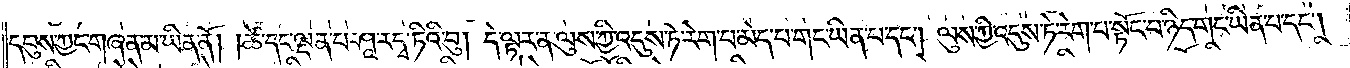དབུས་ཀྱང་གཞན་མ་ཡིན་ནོ། །ཚེ་དང་ལྡན་པ་ཤཱ་རདྭ་ཏིའི་བུ། དེ་ལྟར་ན་ལུས་ཀྱི་འདུས་ཏེ་རེག་པ་མེད་པ་གང་ཡིན་པ་དང༌། ལུས་ཀྱི་འདུས་ཏེ་རེག་པ་སྟོང་པ་ཉིད་གང་ཡིན་པ་དང༌།
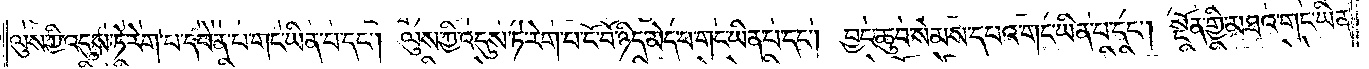ལུས་ཀྱི་འདུས་ཏེ་རེག་པ་དབེན་པ་གང་ཡིན་པ་དང༌། ལུས་ཀྱི་འདུས་ཏེ་རེག་པ་ངོ་བོ་ཉིད་མེད་པ་གང་ཡིན་པ་དང༌། བྱང་ཆུབ་སེམས་དཔའ་གང་ཡིན་པ་དང༌། སྔོན་གྱི་མཐའ་གང་ཡིན་
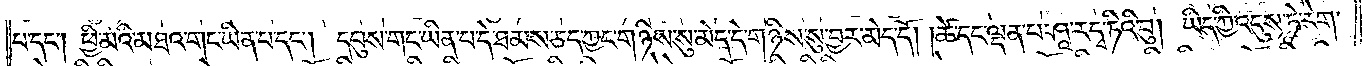པ་དང༌། ཕྱི་མའི་མཐའ་གང་ཡིན་པ་དང༌། དབུས་གང་ཡིན་པ་དེ་ཐམས་ཅད་ཀྱང་གཉིས་སུ་མེད་དེ་གཉིས་སུ་བྱར་མེད་དོ། །ཚེ་དང་ལྡན་པ་ཤཱ་རདྭ་ཏིའི་བུ། ཡིད་ཀྱི་འདུས་ཏེ་རེག་
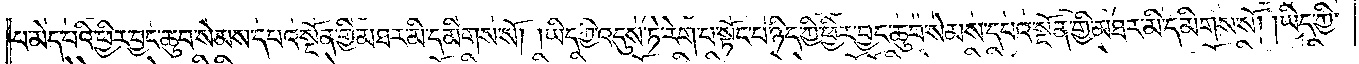པ་མེད་པའི་ཕྱིར་བྱང་ཆུབ་སེམས་དཔའ་སྔོན་གྱི་མཐར་མི་དམིགས་སོ། །ཡིད་ཀྱི་འདུས་ཏེ་རེག་པ་སྟོང་པ་ཉིད་ཀྱི་ཕྱིར་བྱང་ཆུབ་སེམས་དཔའ་སྔོན་གྱི་མཐར་མི་དམིགས་སོ། །ཡིད་ཀྱི་
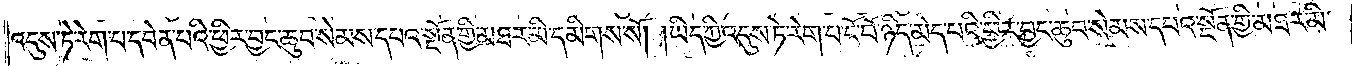འདུས་ཏེ་རེག་པ་དབེན་པའི་ཕྱིར་བྱང་ཆུབ་སེམས་དཔའ་སྔོན་གྱི་མཐར་མི་དམིགས་སོ། །ཡིད་ཀྱི་འདུས་ཏེ་རེག་པ་ངོ་བོ་ཉིད་མེད་པའི་ཕྱིར་བྱང་ཆུབ་སེམས་དཔའ་སྔོན་གྱི་མཐར་མི་
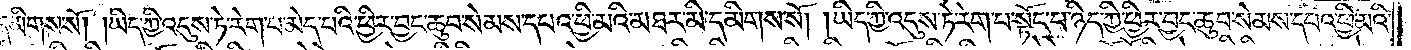དམིགས་སོ། །ཡིད་ཀྱི་འདུས་ཏེ་རེག་པ་མེད་པའི་ཕྱིར་བྱང་ཆུབ་སེམས་དཔའ་ཕྱི་མའི་མཐར་མི་དམིགས་སོ། །ཡིད་ཀྱི་འདུས་ཏེ་རེག་པ་སྟོང་པ་ཉིད་ཀྱི་ཕྱིར་བྱང་ཆུབ་སེམས་དཔའ་ཕྱི་མའི་
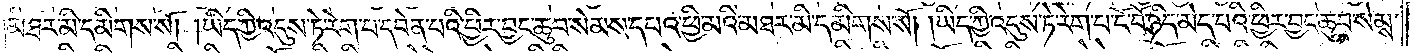མཐར་མི་དམིགས་སོ། །ཡིད་ཀྱི་འདུས་ཏེ་རེག་པ་དབེན་པའི་ཕྱིར་བྱང་ཆུབ་སེམས་དཔའ་ཕྱིར་བྱང་ཆུབ་སེམས་དཔའ་ཕྱི་མའི་མཐར་མི་དམིགས་སོ། །ཡིད་ཀྱི་འདུས་ཏེ་རེག་པ་ངོ་བོ་ཉིད་མེད་པའི་ཕྱིར་བྱང་ཆུབ་སེམས་
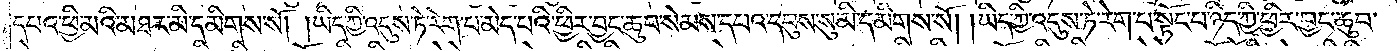དཔའ་ཕྱི་མའི་མཐར་མི་དམིགས་སོ། །ཡིད་ཀྱི་འདུས་ཏེ་རེག་པ་མེད་པའི་ཕྱིར་བྱང་ཆུབ་སེམས་དཔའ་དབུས་སུ་མི་དམིགས་སོ། །ཡིད་ཀྱི་འདུས་ཏེ་རེག་པ་སྟོང་པ་ཉིད་ཀྱི་ཕྱིར་བྱང་ཆུབ་
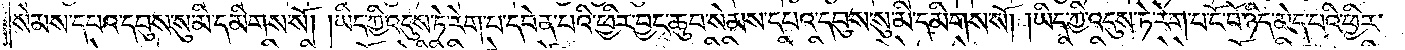སེམས་དཔའ་དབུས་སུ་མི་དམིགས་སོ། །ཡིད་ཀྱི་འདུས་ཏེ་རེག་པ་དབེན་པའི་ཕྱིར་བྱང་ཆུབ་སེམས་དཔའ་དབུས་སུ་མི་དམིགས་སོ། །ཡིད་ཀྱི་འདུས་ཏེ་རེག་པ་ངོ་བོ་ཉིད་མེད་པའི་ཕྱིར་
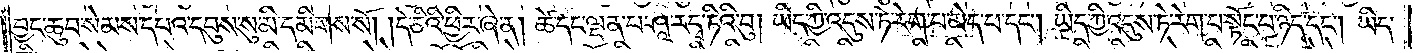བྱང་ཆུབ་སེམས་དཔའ་དབུས་སུ་མི་དམིགས་སོ། །དེ་ཅིའི་ཕྱིར་ཞེ་ན། ཚེ་དང་ལྡན་པ་ཤཱ་རདྭ་ཏིའི་བུ། ཡིད་ཀྱི་འདུས་ཏེ་རེག་པ་མེད་པ་དང༌། ཡིད་ཀྱི་འདུས་ཏེ་རེག་པ་སྟོང་པ་ཉིད་དང༌། ཡིད་
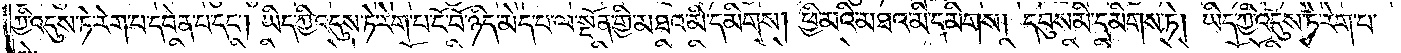ཀྱི་འདུས་ཏེ་རེག་པ་དབེན་པ་དང༌། ཡིད་ཀྱི་འདུས་ཏེ་རེག་པ་ངོ་བོ་ཉིད་མེད་པ་ལ་སྔོན་གྱི་མཐའ་མི་དམིགས། ཕྱི་མའི་མཐའ་མི་དམིགས། དབུས་མི་དམིགས་ཏེ། ཡིད་ཀྱི་འདུས་ཏེ་རེག་པ་
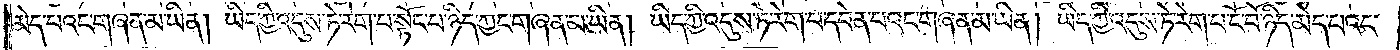མེད་པའང་གཞན་མ་ཡིན། ཡིད་ཀྱི་འདུས་ཏེ་རེག་པ་སྟོང་པ་ཉིད་ཀྱང་གཞན་མ་ཡིན། ཡིད་ཀྱི་འདུས་ཏེ་རེག་པ་དབེན་པའང་གཞན་མ་ཡིན། ཡིད་ཀྱི་འདུས་ཏེ་རེག་པ་ངོ་བོ་ཉིད་མེད་པའང་
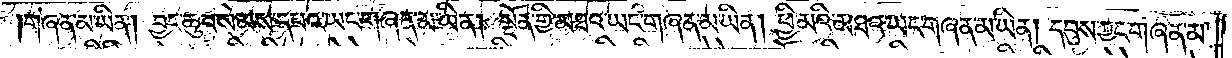གཞན་མ་ཡིན། བྱང་ཆུབ་སེམས་དཔའ་ཡང་གཞན་མ་ཡིན། སྔོན་གྱི་མཐའ་ཡང་གཞན་མ་ཡིན། ཕྱི་མའི་མཐའ་ཡང་གཞན་མ་ཡིན། དབུས་ཀྱང་གཞན་མ་
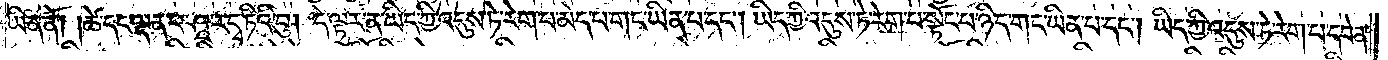ཡིན་ནོ། ཚེ་དང་ལྡན་པ་ཤཱ་རདྭ་ཏིའི་བུ། དེ་ལྟར་ན་ཡིད་ཀྱི་འདུས་ཏེ་རེག་པ་མེད་པ་གང་ཡིན་པ་དང༌། ཡིད་ཀྱི་འདུས་ཏེ་རེག་པ་སྟོང་པ་ཉིད་གང་ཡིན་པ་དང༌། ཡིད་ཀྱི་འདུས་ཏེ་རེག་པ་དབེན་
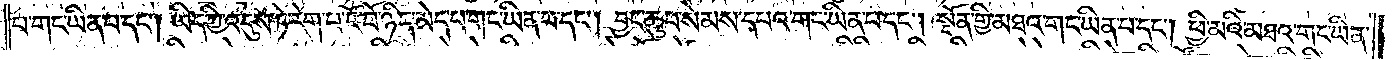པ་གང་ཡིན་པ་དང༌། ཡིད་ཀྱི་འདུས་ཏེ་རེག་པ་ངོ་བོ་ཉིད་མེད་པ་གང་ཡིན་པ་དང༌། བྱང་ཆུབ་སེམས་དཔའ་གང་ཡིན་པ་དང༌། སྔོན་གྱི་མཐའ་གང་ཡིན་པ་དང༌། ཕྱི་མའི་མཐའ་གང་ཡིན་
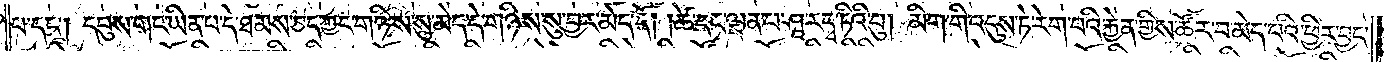པ་དང༌། དབུས་གང་ཡིན་པ་དེ་ཐམས་ཅད་ཀྱང་གཉིས་སུ་མེད་དེ་གཉིས་སུ་བྱར་མེད་དོ། །ཚེ་དང་ལྡན་པ་ཤཱ་རདྭ་ཏིའི་བུ། མིག་གི་འདུས་ཏེ་རེག་པའི་རྐྱེན་གྱིས་ཚོར་བ་མེད་པའི་ཕྱིར་བྱང་
